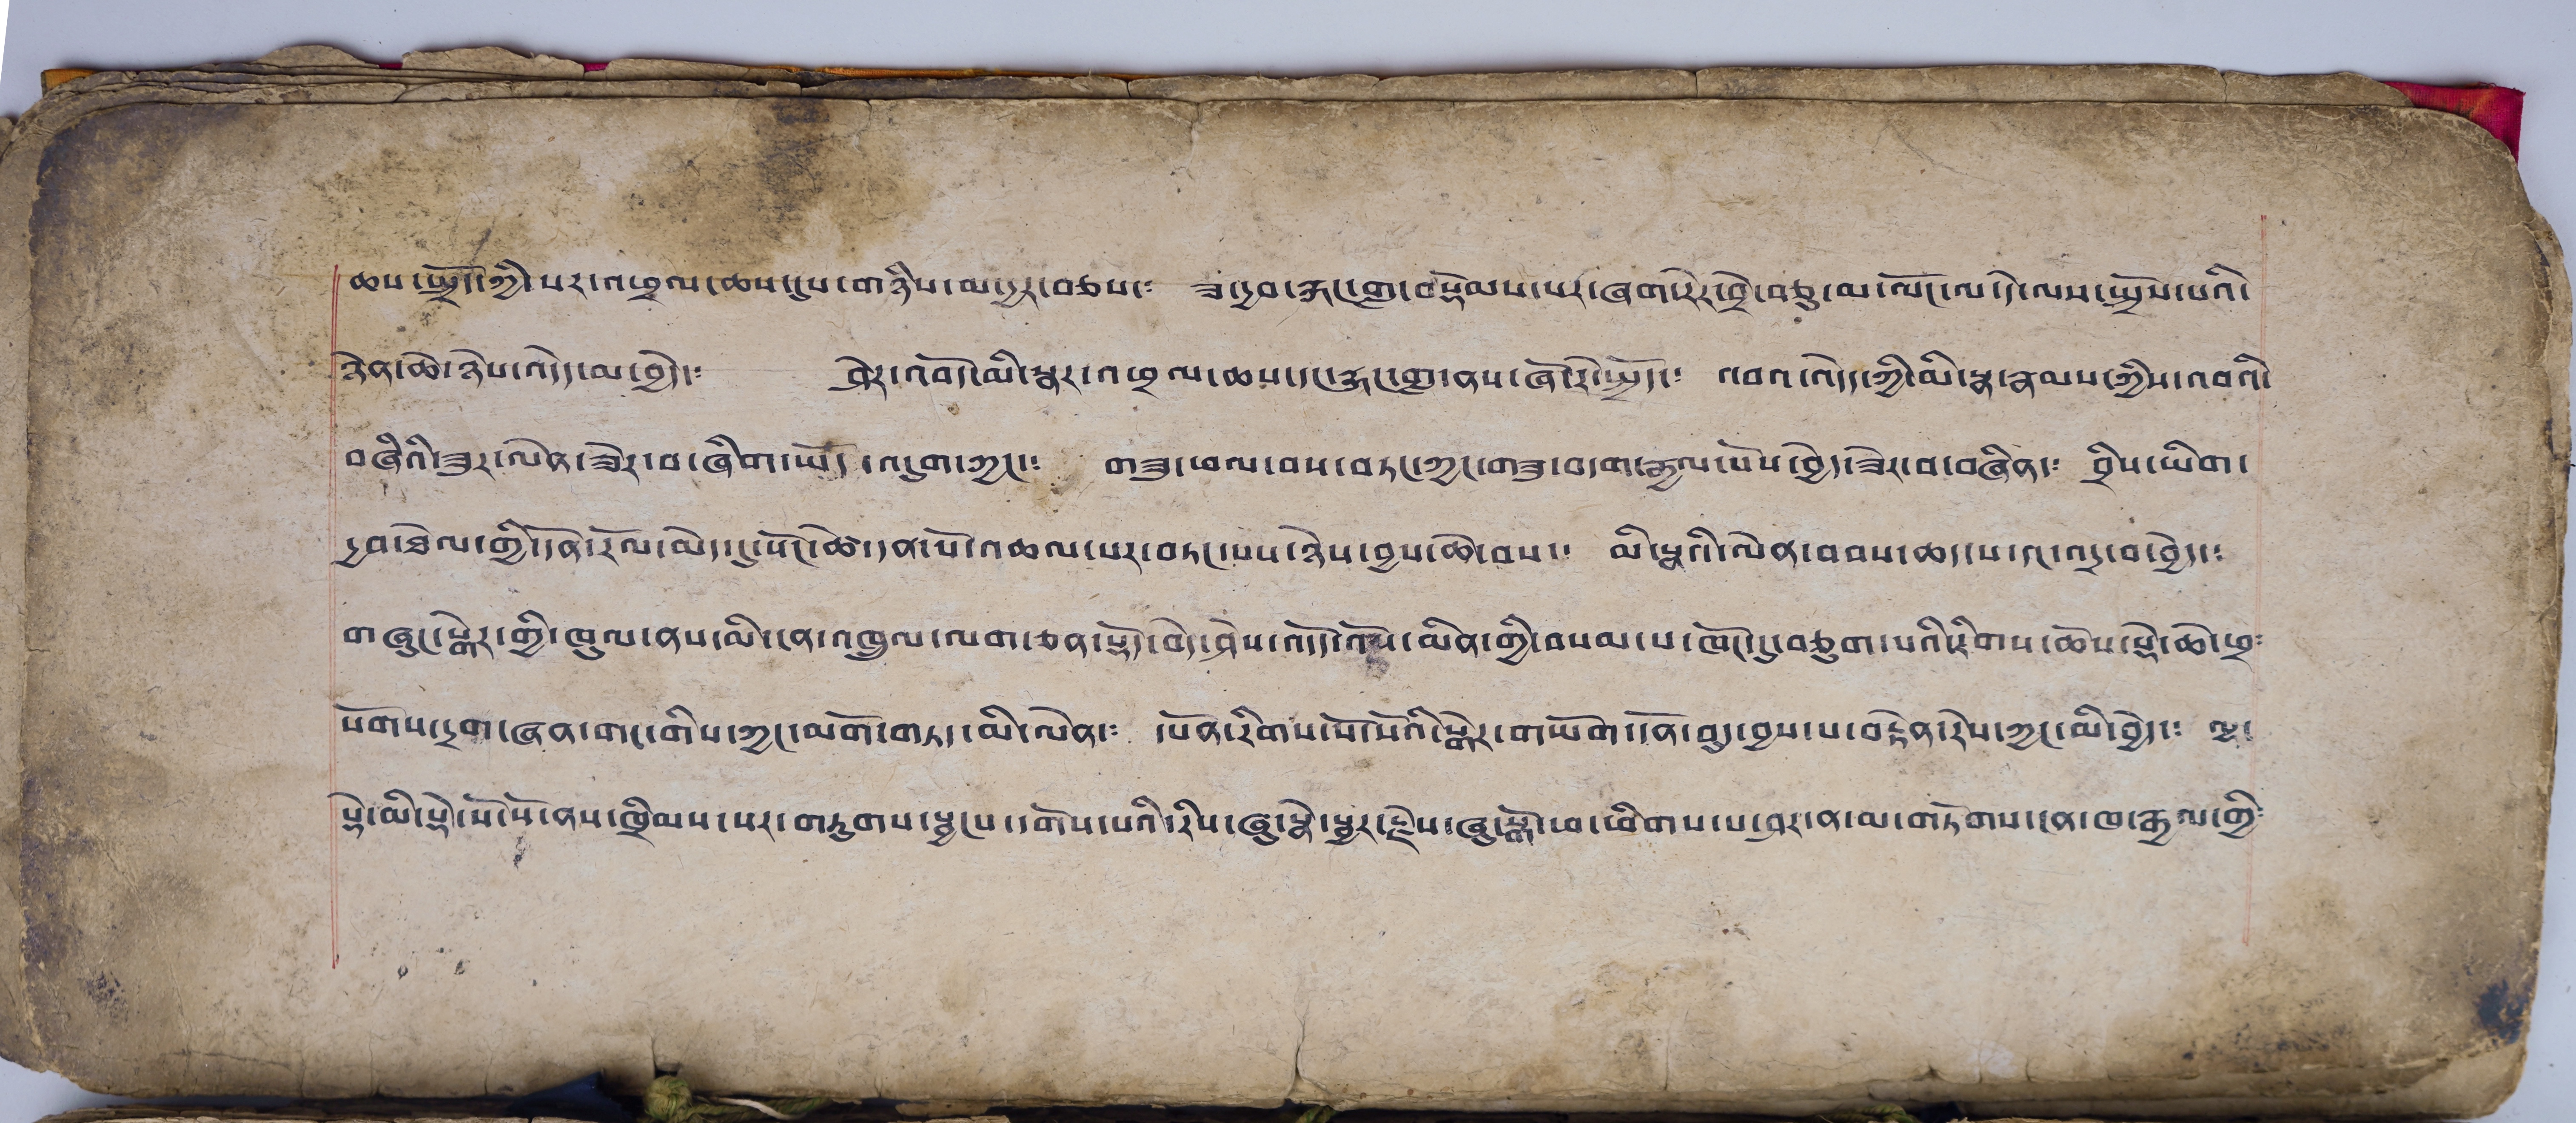ཆས་སྤྲོད་ཀྱི་སར་འཕྲལ་ཆས་དུས་གཉིས་མ་དྱར་བཅས་༴ ཟ་དྱབ་རྐང་གླ་བསྡོམས་པར་ཞག་རེར་བྲེ་བཅུ་མ་ལོང་ལ་དེ་ལས་སྤྲོས་པའི་
ཉེན་ཆེ་ཉེས་འདེད་མ་བྱེད་༴ ཤེར་འབོད་མི་སྣར་འཕྲལ་ཆས་དང་རྐང་གླ་ནས་ཞོ་རེ་སྤྱོད་༴ འབའ་འདེད་ཀྱི་མི་སྣ་རྣམས་ཀྱིས་འབའི་
བཞིའི་ཟུར་ལེན་ཟེར་བ་ཞིག་ཡོད་འདུག་ཀྱང་༴ གཟུ་ཕལ་བས་བཏང་ཀྱང་གཟུ་བདག་རྒྱལ་པོས་བྱེད་ཟེར་བ་བཞིན་༴ བྲིས་ཡིག་
དྱབ་ཟེལ་གྱི་དོན་རོལ་མེད་དུ་སོང་ཚེ་དན་པོ་འཆལ་པར་བཏང་པས་ཉེས་བྱས་ཆེ་བས་༴ མི་སྣའི་ལེན་བབས་ཆད་པ་དང་འདྲ་བ་བྱེད་༴
གཞུང་སྒེར་གྱི་ཁུལ་ནས་མི་ངན་འཁྲུལ་ལག་ཅན་སྡོད་བེད་ཤེས་འདོད་འོས་མིན་གྱི་བསམ་པ་ཁོང་དུ་བཅུག་པའི་རིགས་ཆེས་སྡེ་ཆེ་ཕྲ༴
སོགས་དྲག་ཞན་གང་གིས་ཀྱང་མགོ་གཏད་མི་ལེན་༴ དཔོན་རིགས་སོ་སོའི་སྒེར་གཡོག་དོན་བུད་བྱས་པ་བརྟེན་རེས་ཀྱང་མི་བྱེད་༴ ལྷ་
སྡེ་མི་སྡེ་སོ་སོ་ནས་ཁྲིམས་པར་གཏུགས་སྦྱངས་དགེས་པའི་རིས་ཞུ་སྣེ་སྦྱར་རྗེས་ཞུ་སྒོ་ཕ་ཕིགས་པ་ཤར་ན་མ་གཏོགས་ངན་ཁ་རྒྱལ་གྱི༴
